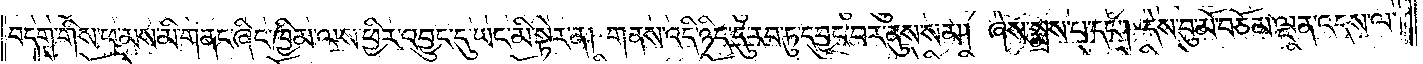བདག་གིས་ཕ་མས་མི་གནང་ཞིང་ཁྱིམ་ལས་ཕྱིར་འབྱུང་དུ་ཡང་མི་སྟེར་ན། གནས་འདི་ཉིད་དུ་རབ་ཏུ་དབྱུང་བར་ནུས་སམ། ཞེས་སྨྲས་པ་དང༌། དེས་བུ་མོ་བཅོམ་ལྡན་འདས་ལ་
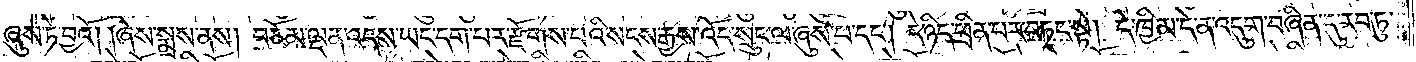ཞུས་ཏེ་བྱའོ། །ཞེས་སྨྲས་ནས། བཅོམ་ལྡན་འདས་ཡང་དག་པར་རྫོགས་པའི་སངས་རྒྱས་འོད་སྲུང་ལ་ཞུས་པ་དང༌། དེ་ཉིད་ཕྲིན་པར་བཏང་སྟེ། དེ་ཁྱིམ་དེ་ན་འདུག་བཞིན་དུ་རབ་ཏུ་
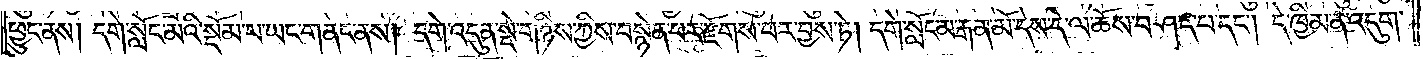ཕྱུང་ནས། དགེ་སློང་མའི་སྡོམ་པ་ཡང་གནང་ནས། དགེ་འདུན་སྡེ་གཉིས་ཀྱིས་བསྙེན་པར་རྫོགས་པར་བྱས་ཏེ། དགེ་སློང་མ་རྒན་མོ་དེས་དེ་ལ་ཆོས་བཤད་པ་དང༌། དེ་ཁྱིམ་ན་འདུག་
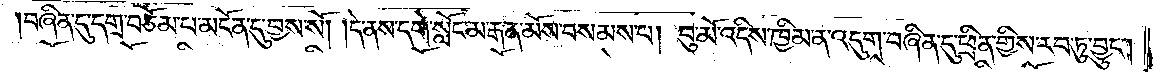བཞིན་དུ་དགྲ་བཅོམ་པ་མངོན་དུ་བྱས་སོ། །དེ་ནས་དགེ་སློང་མ་རྒན་མོས་བསམས་པ། བུ་མོ་འདིས་ཁྱིམ་ན་འདུག་བཞིན་དུ་ཕྲིན་གྱིས་རབ་ཏུ་བྱུང༌།
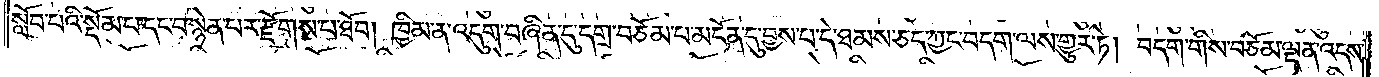སློབ་པའི་སྡོམ་པ་དང་བསྙེན་པར་རྫོགས་པ་ཐོབ། ཁྱིམ་ན་འདུག་བཞིན་དུ་དགྲ་བཅོམ་པ་མངོན་དུ་བྱས་པ་དེ་ཐམས་ཅད་ཀྱང་བདག་ལས་གྱུར་ཏེ། བདག་གིས་བཅོམ་ལྡན་འདས་
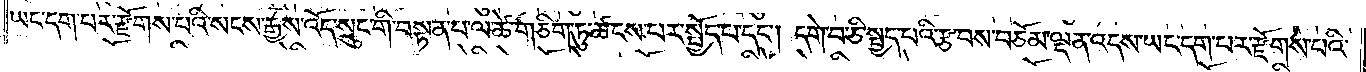ཡང་དག་པར་རྫོགས་པའི་སངས་རྒྱས་འོད་སྲུང་གི་བསྟན་པ་ལ་ཚེ་གཅིག་ཏུ་ཚངས་པར་སྤྱོད་པ་དང༌། དགེ་བ་ཅི་སྤྱད་པའི་རྩ་བས་བཅོམ་ལྡན་འདས་ཡང་དག་པར་རྫོགས་པའི་
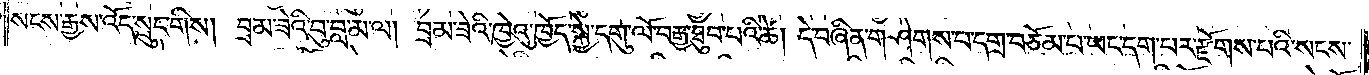སངས་རྒྱས་འོད་སྲུང་གིས། བྲམ་ཟེའི་བུ་བླ་མ་ལ། བྲམ་ཟེའི་ཁྱེའུ་ཁྱོད་སྐྱེ་དགུ་ལོ་བརྒྱ་ཐུབ་པའི་ཚེ། དེ་བཞིན་གཤེགས་པ་དགྲ་བཅོམ་པ་ཡང་དག་པར་རྫོགས་པའི་སངས་
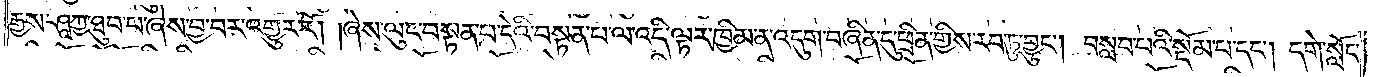རྒྱས་ཤཱཀྱ་ཐུབ་པ་ཞེས་བྱ་བར་འགྱུར་རོ། །ཞེས་ལུང་བསྟན་པ་དེའི་བསྟན་པ་ལ་འདི་ལྟར་ཁྱིམ་ན་འདུག་བཞིན་དུ་ཕྲིན་གྱིས་རབ་ཏུ་བྱུང༌། བསླབ་པའི་སྡོམ་པ་དང༌། དགེ་སློང་
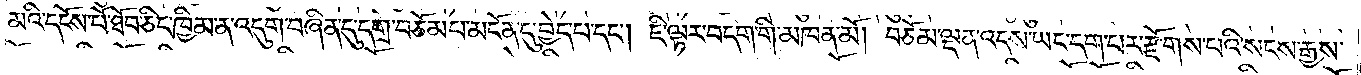མའི་དངོས་པོ་ཐོབ་ཅིང་ཁྱིམ་ན་འདུག་བཞིན་དུ་དགྲ་བཅོམ་པ་མངོན་དུ་བྱེད་པ་དང༌། ཇི་ལྟར་བདག་གི་མཁན་མོ། བཅོམ་ལྡན་འདས་ཡང་དག་པར་རྫོགས་པའི་སངས་རྒྱས་
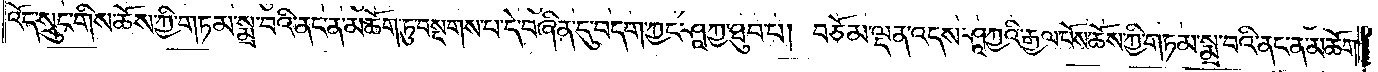འོད་སྲུང་གིས་ཆོས་ཀྱི་གཏམ་སྨྲ་བའི་ནང་ན་མཆོག་ཏུ་བསྔགས་པ་དེ་བཞིན་དུ་བདག་ཀྱང་ཤཱཀྱ་ཐུབ་པ། བཅོམ་ལྡན་འདས་ཤཱཀྱའི་རྒྱལ་པོས་ཆོས་ཀྱི་གཏམ་སྨྲ་བའི་ནང་ན་མཆོག་
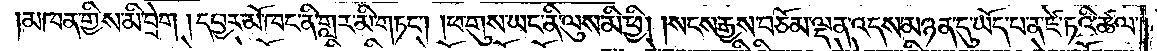མཁན་གྱིས་མི་བྲེག །དབྱར་མོ་ཁང་ནི་གླར་མི་གཏང༌། །ཕ་གུས་ཡང་ནི་ལུས་མི་ཕྱི། །སངས་རྒྱས་བཅོམ་ལྡན་འདས་མཉན་དུ་ཡོད་པ་ན་ཛེ་ཏའི་ཚལ་
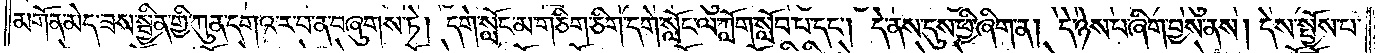མགོན་མེད་ཟས་སྦྱིན་གྱི་ཀུན་དགའ་ར་བ་ན་བཞུགས་ཏེ། དགེ་སློང་མ་གཅིག་ཅིག་དགེ་སློང་ལ་ཀློག་སློབ་པ་དང༌། དེ་ནས་དུས་ཕྱི་ཞིག་ན། དེ་ཉེས་པ་ཞིག་བྱས་ནས། དེས་སྤྱོས་པ་
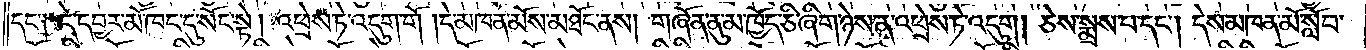དང་༑ དེ་དབྱར་མོ་ཁང་དུ་སོང་སྟེ། འཕྲེས་ཏེ་འདུག་གོ །དེ་མཁན་མོས་མཐོང་ནས། གཞོན་ནུ་མ་ཁྱོད་ཅི་ཞིག་ཉེས་ན་འཕྲེས་ཏེ་འདུག། ཅེས་སྨྲས་པ་དང༌། དེས་མཁན་མོ་སློབ་
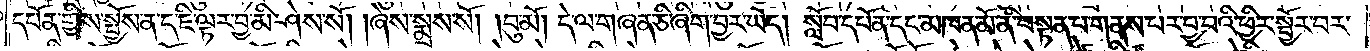དཔོན་གྱིས་སྤྱོས་ན་ད་ཇི་ལྟར་བྱ་མི་ཤེས་སོ། །ཞེས་སྨྲས་སོ། །བུ་མོ། དེ་ལ་གཞན་ཅི་ཞིག་བྱར་ཡོད། སློབ་དཔོན་དང་མཁན་མོ་ནི་བསྟན་པ་གནས་པར་བྱ་བའི་ཕྱིར་སྦྱོར་བར་
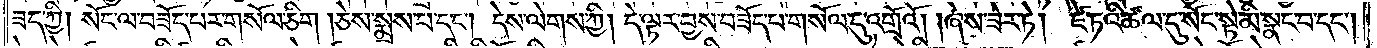ཟད་ཀྱི། སོང་ལ་བཟོད་པར་གསོལ་ཅིག །ཅེས་སྨྲས་པ་དང༌། དེས་ལེགས་ཀྱི། དེ་ལྟར་བྱས་བཟོད་པ་གསོལ་དུ་འགྲོའོ། །ཞེས་ཟེར་ཏེ། ཛེ་ཏའི་ཚལ་དུ་སོང་སྟེ་མི་སྣང་བ་དང༌།
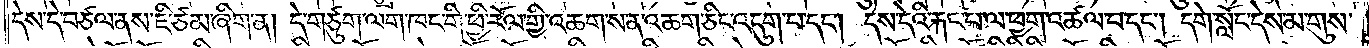དེས་དེ་བཙལ་ནས་ཇི་ཙམ་ཞིག་ན། དེ་གཙུག་ལག་ཁང་གི་ཕྱི་རོལ་གྱི་འཆགས་ན་འཆག་ཅིང་འདུག་པ་དང༌། དེས་དེའི་རྐང་པ་ལ་ཕྱག་འཚལ་བ་དང༌། དགེ་སློང་དེས་མ་གུས་
